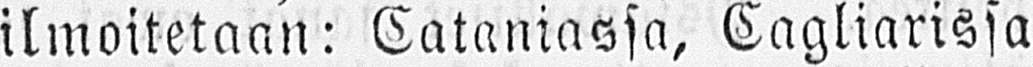ilmoitetaan: Cataniassa, Cagliarissa
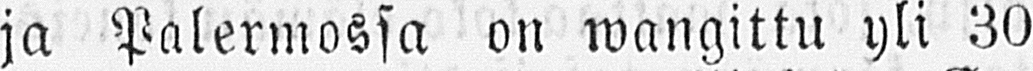ja Palermossa on waugittu yli 30
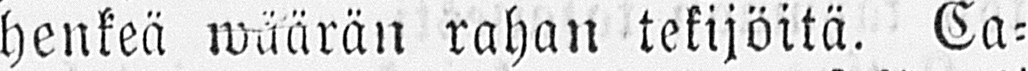henkeä wäärän rahan tekijöitä. Ca-
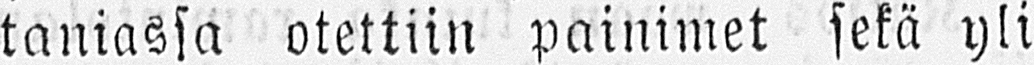taniassa otettiin painimet sekä yli
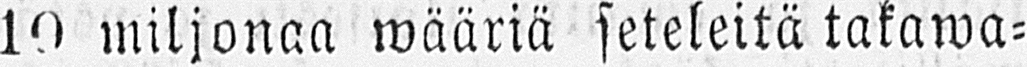10 miljonaa wääriä seteleitä takawa-
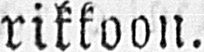rikkoon.
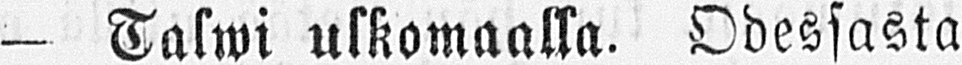— Talwi ulkomaalla. Odessasta
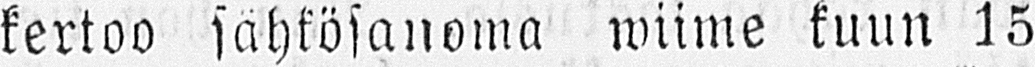kertoo sähkösanoma wiime kuun 15
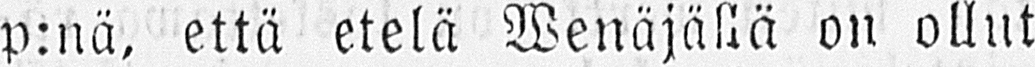p:nä, että etelä Wenäjällä on ollut
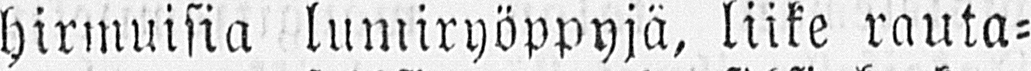hirmuisia lumiryöppyjä, liike rauta-
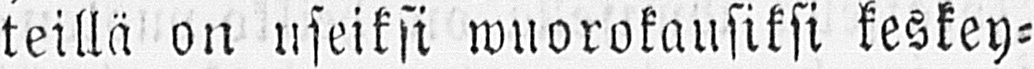teillä on useiksi wuorokausiksi keskey-
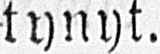tynyt.
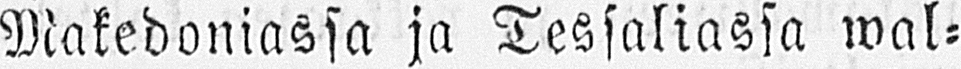Makedoniassa ja Tessaliassa wal-
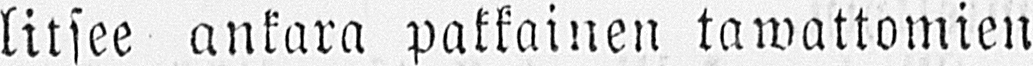litsee ankara pakkainen tawattomien
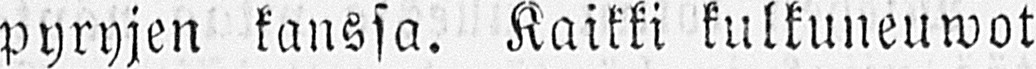pyryjen kanssa. Kaikki kulkuneuwot
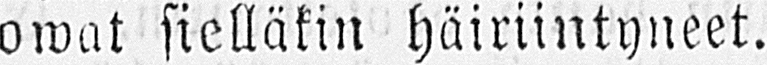owat sielläkin häiriintyneet.
